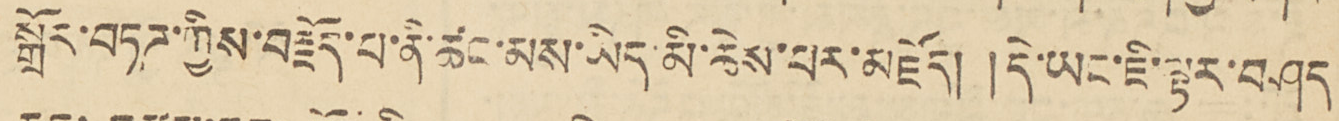སྒྲོན་བཏཌ་ཀྱིས་བརྗོད་པ་ནི་ཚང་མས་ཡིད་མི་ཆེས་པར་མཛོད། །དེ་ཡང་ཇི་ལྟར་བཤད
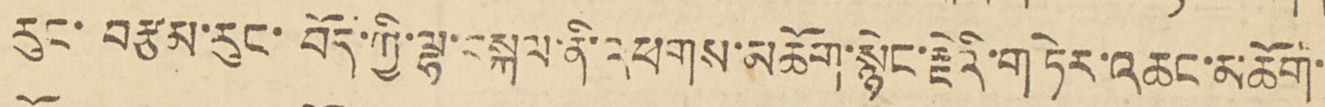རུང་བརྩམ་རུང་བོད་ཀྱི་ལྷ་བསྐལ་ནི་འཕགས་མཆོག་སྙིང་རྗེའི་གཏེར་འཆང་མཆོག་
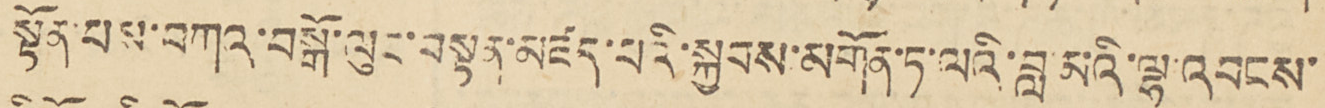སྟོན་པས་བཀའ་བསྒོ་ལུང་བསྟན་མཛད་པའི་སྐྱབས་མགོན་ཏ་ལའི་བླ་མའི་ལྷ་འབངས་
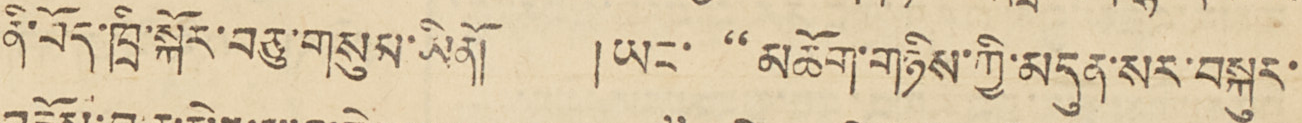ནི་བོད་ཁྲི་སྐོར་བཅུ་གསུམ་ཡིནོ། །ཡང་ " མཆོག་གཉིས་ཀྱི་མདུན་སར་བསྐུར་
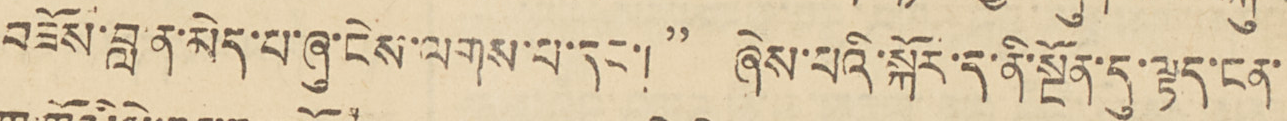བཟོས་བླ་ན་མེད་པ་ཞུ་ངེས་ལགས་པ་དང་། " ཞེས་པའི་སྐོར་ད་ནི་སྔོན་དུ་ལྟད་ངན་
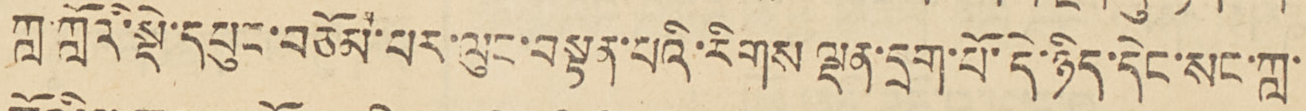ཀླ་ཀློའི་སྡེ་དཔུང་བཅོམ་པར་ལུང་བསྟན་པའི་རིགས ལྡན་དྲག་པོ་དེ་ཉིད་དེང་སང་ཀླ་
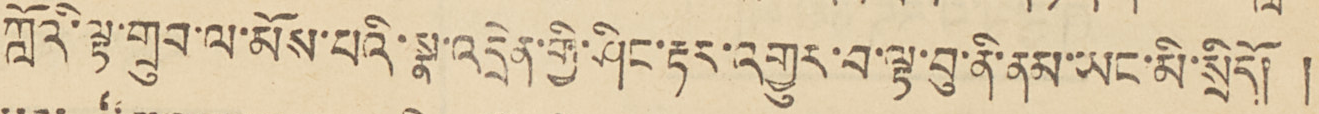ཀློའི་ལྟ་གྲུབ་ལ་མོས་པའི་སྣ་འདྲེན་གྱི་ཤིང་རྟར་འགྱུར་བ་ལྟ་བུ་ནི་ནམ་ཡང་མི་སྲིདོ།།
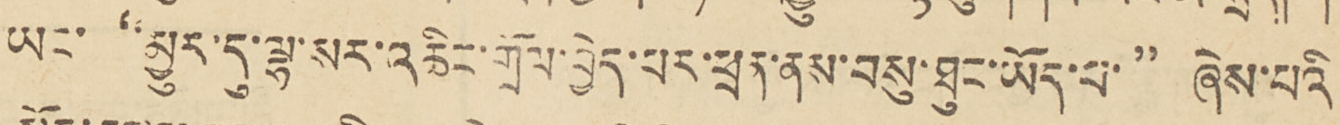ཡང་ " མྱུར་དུ་ལྷ་སར་འཆིང་གྲོལ་བྱེད་པར་ཕྲན་ནས་བསུ་ཐུང་ཡོད་པ་" ཞེས་པའི
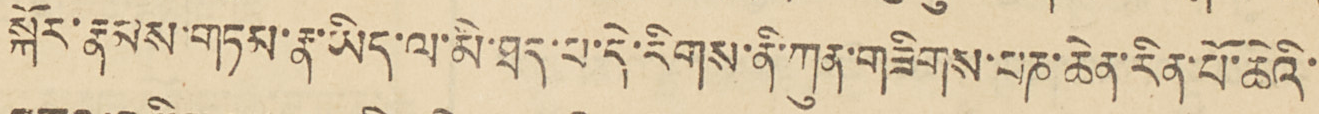སྐོར་རྣམས་གཏམ་རྣ་ཡིད་ལ་མི་ཐད་པ་དེ་རིགས་ནི་ཀུན་གཟིགས་པཎ་ཆེན་རིན་པོ་ཆེའི་
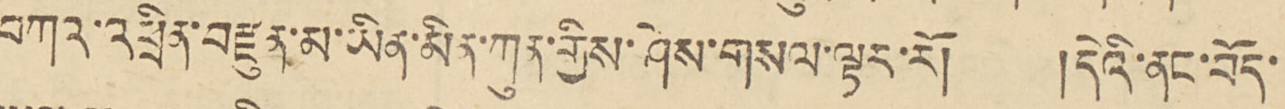བཀའ་འཕྲིན་བརྫུན་མ་ཡིན་མིན་ཀུན་གྱིས་ཤེས་གསལ་ལྟར་རོ། །དེའི་ནང་བོད་
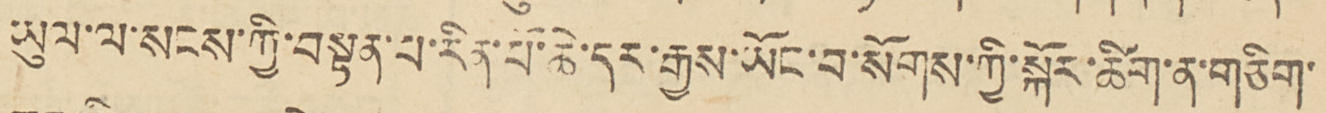ཡུལ་ལ་སངས་རྒྱས་ཀྱི་བསྟན་པ་རིན་པོ་ཆེ་དར་རྒྱས་ཡོང་བ་སོགས་ཀྱི་སྐོར་ཚིག་ན་གཅིག་
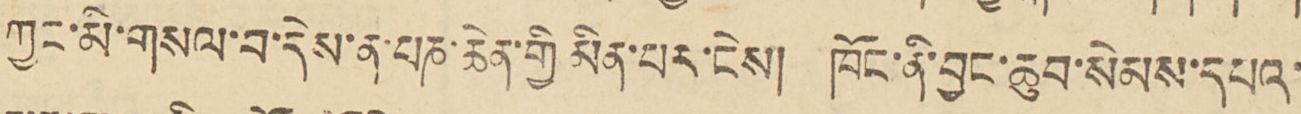ཀྱང་མི་གསལ་བ་དེས་ན་པཎ་ཆེན་གྱི མིན་པར་ངེས། །ཁོང་ནི་བྱང་ཆུབ་སེམས་དཔའ་
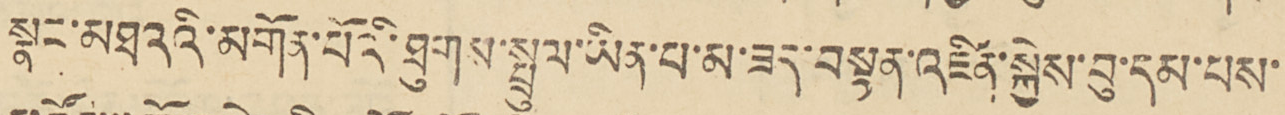སྣང་མཐའའི་མགོན་པོའི་ཐུགས་སྤྲུལ་ཡིན་པ་མ་ཟད་བསྟན་འཛིན་སྐྱེས་བུ་དམ་པས་
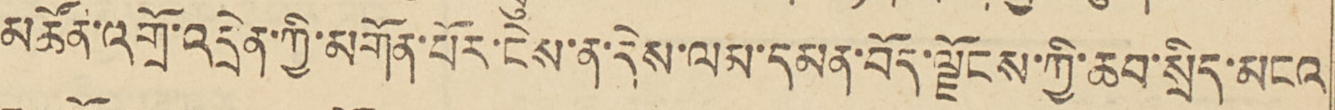མཚོན་འགྲོ་འདྲེན་ཀྱི་མགོན་པོར་ངེས་ན་དེས་ལམ་དམན་བོད་ལྗོངས་ཀྱི་ཆབ་སྲིད་མངའ
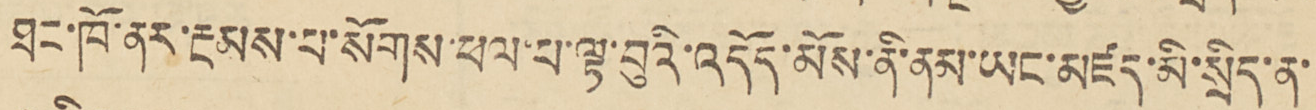ཐང་ཁོ་ནར་རྔམས་པ་སོགས་ཕལ་པ་ལྟ་བུའི་འདོད་མོས་ནི་ནམ་ཡང་མཛད་མི་སྲིད་ན་
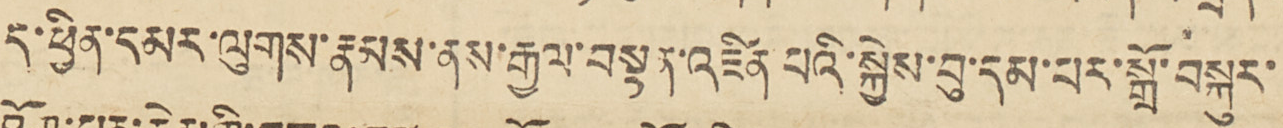ད་ཕྱིན་དམར་ལུགས་རྣམས་ནས་རྒྱལ་བསྟན་འཛིན་པའི་སྐྱེས་བུ་དམ་པར་སྒྲོ་བསྐུར་
